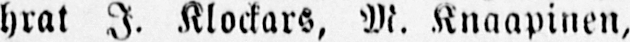hrat I. Klockars, M. Knaapinen,
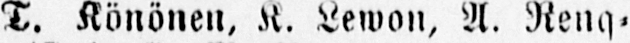T. Könönen, K. Lewon, A. Reng-
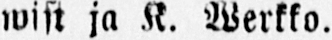wist ja K. Werkko.
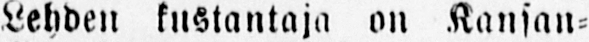Lehden kustantaja on Kansan-
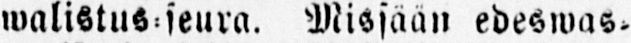walistus-seura. Missään edeswas-
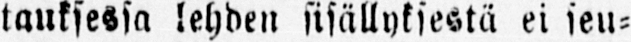tauksessa lehden sisällyksestä ei seu-
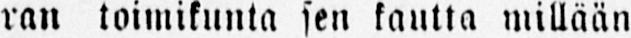ran toimikunta sen kautta millään
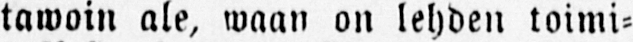tawoin ale, waan on lehden toimi-
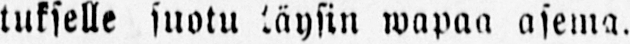tukselle suotu täysin wapaa asema.
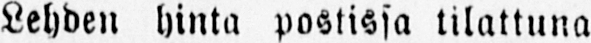Lehden hinta postissa tilattuna
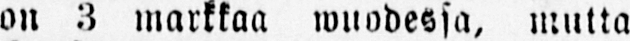on 3 markkaa wuodessa, mutta
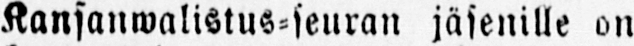Kansanwalistus-seuran jäsenille on
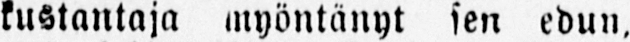kustantaja myöntänyt sen edun.
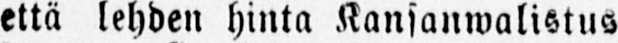että lehden hinta Kansanwalistus-
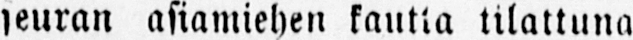seuran asiamiehen kautta tilattuna
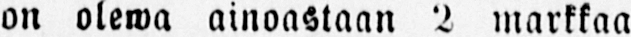on olewa ainoastaan 2 markkaa
